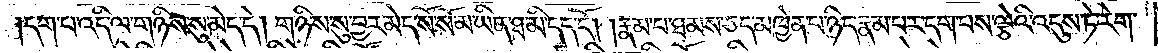དག་པ་འདི་ལ་གཉིས་སུ་མེད་དེ། གཉིས་སུ་བྱར་མེད་སོ་སོ་མ་ཡིན་ཐ་མི་དད་དོ། །རྣམ་པ་ཐམས་ཅད་མཁྱེན་པ་ཉིད་རྣམ་པར་དག་པས་ལྕེའི་འདུས་ཏེ་རེག་
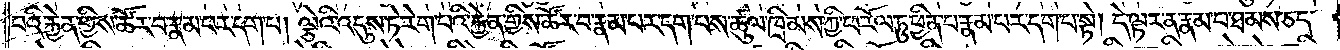པའི་རྐྱེན་གྱིས་ཚོར་བ་རྣམ་པར་དག་པ། ལྕེའི་འདུས་ཏེ་རེག་པའི་རྐྱེན་གྱིས་ཚོར་བ་རྣམ་པར་དག་པས་ཚུལ་ཁྲིམས་ཀྱི་ཕ་རོལ་ཏུ་ཕྱིན་པ་རྣམ་པར་དག་པ་སྟེ། དེ་ལྟར་ན་རྣམ་པ་ཐམས་ཅད་
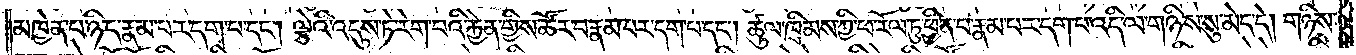མཁྱེན་པ་ཉིད་རྣམ་པར་དག་པ་དང༌། ལྕེའི་འདུས་ཏེ་རེག་པའི་རྐྱེན་གྱིས་ཚོར་བ་རྣམ་པར་དག་པ་དང༌། ཚུལ་ཁྲིམས་ཀྱི་ཕ་རོལ་ཏུ་ཕྱིན་པ་རྣམ་པར་དག་པ་འདི་ལ་གཉིས་སུ་མེད་དེ། གཉིས་
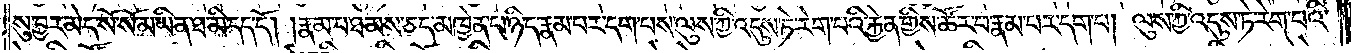སུ་བྱར་མེད་སོ་སོ་མ་ཡིན་ཐ་མི་དད་དོ། །རྣམ་པ་ཐམས་ཅད་མཁྱེན་པ་ཉིད་རྣམ་པར་དག་པས་ལུས་ཀྱི་འདུས་ཏེ་རེག་པའི་རྐྱེན་གྱིས་ཚོར་བ་རྣམ་པར་དག་པ། ལུས་ཀྱི་འདུས་ཏེ་རེག་པའི་
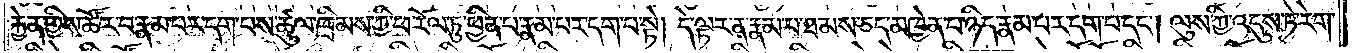རྐྱེན་གྱིས་ཚོར་བ་རྣམ་པར་དག་པས་ཚུལ་ཁྲིམས་ཀྱི་ཕ་རོལ་ཏུ་ཕྱིན་པ་རྣམ་པར་དག་པ་སྟེ། དེ་ལྟར་ན་རྣམ་པ་ཐམས་ཅད་མཁྱེན་པ་ཉིད་རྣམ་པར་དག་པ་དང༌། ལུས་ཀྱི་འདུས་ཏེ་རེག་
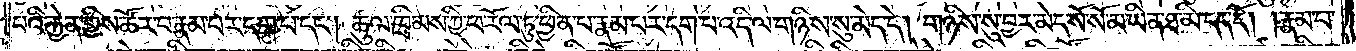པའི་རྐྱེན་གྱིས་ཚོར་བ་རྣམ་པར་དག་པ་དང༌། ཚུལ་ཁྲིམས་ཀྱི་ཕ་རོལ་ཏུ་ཕྱིན་པ་རྣམ་པར་དག་པ་འདི་ལ་གཉིས་སུ་མེད་དེ། གཉིས་སུ་བྱར་མེད་སོ་སོ་མ་ཡིན་ཐ་མི་དད་དོ། །རྣམ་པ་
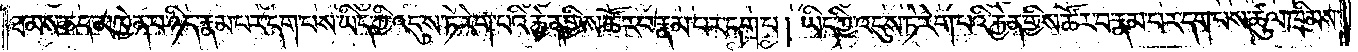ཐམས་ཅད་མཁྱེན་པ་ཉིད་རྣམ་པར་དག་པས་ཡིད་ཀྱི་འདུས་ཏེ་རེག་པའི་རྐྱེན་གྱིས་ཚོར་བ་རྣམ་པར་དག་པ། ཡིད་ཀྱི་འདུས་ཏེ་རེག་པའི་རྐྱེན་གྱིས་ཚོར་བ་རྣམ་པར་དག་པས་ཚུལ་ཁྲིམས་
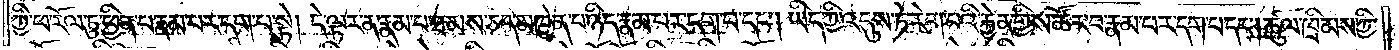ཀྱི་ཕ་རོལ་ཏུ་ཕྱིན་པ་རྣམ་པར་དག་པ་སྟེ། དེ་ལྟར་ན་རྣམ་པ་ཐམས་ཅད་མཁྱེན་པ་ཉིད་རྣམ་པར་དག་པ་དང༌། ཡིད་ཀྱི་འདུས་ཏེ་རེག་པའི་རྐྱེན་གྱིས་ཚོར་བ་རྣམ་པར་དག་པ་དང༌། ཚུལ་ཁྲིམས་ཀྱི་
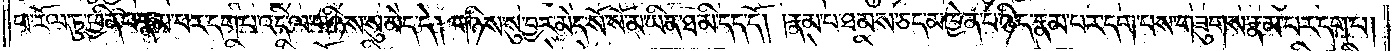ཕ་རོལ་ཏུ་ཕྱིན་པ་རྣམ་པར་དག་པ་འདི་ལ་གཉིས་སུ་མེད་དེ། གཉིས་སུ་བྱར་མེད་སོ་སོ་མ་ཡིན་ཐ་མི་དད་དོ། །རྣམ་པ་ཐམས་ཅད་མཁྱེན་པ་ཉིད་རྣམ་པར་དག་པས་གཟུགས་རྣམ་པར་དག་པ།
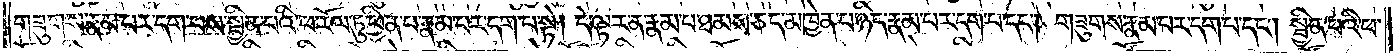གཟུགས་རྣམ་པར་དག་པས་སྦྱིན་པའི་ཕ་རོལ་ཏུ་ཕྱིན་པ་རྣམ་པར་དག་པ་སྟེ། དེ་ལྟར་ན་རྣམ་པ་ཐམས་ཅད་མཁྱེན་པ་ཉིད་རྣམ་པར་དག་པ་དང༌། གཟུགས་རྣམ་པར་དག་པ་དང༌། སྦྱིན་པའི་ཕ་
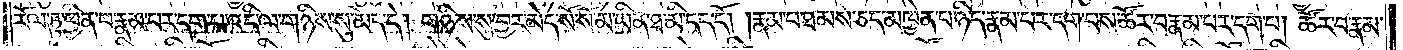རོལ་ཏུ་ཕྱིན་པ་རྣམ་པར་དག་པ་འདི་ལ་གཉིས་སུ་མེད་དེ། གཉིས་སུ་བྱར་མེད་སོ་སོ་མ་ཡིན་ཐ་མི་དད་དོ། །རྣམ་པ་ཐམས་ཅད་མཁྱེན་པ་ཉིད་རྣམ་པར་དག་པས་ཚོར་བ་རྣམ་པར་དག་པ། ཚོར་བ་རྣམ་
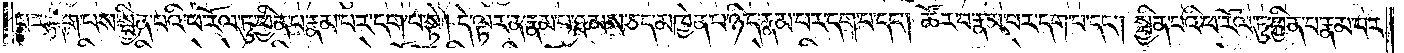པར་དག་པས་སྦྱིན་པའི་ཕ་རོལ་ཏུ་ཕྱིན་པ་རྣམ་པར་དག་པར་པ་སྟེ། དེ་ལྟར་ན་རྣམ་པ་ཐམས་ཅད་མཁྱེན་པ་ཉིད་རྣམ་པར་དག་པ་དང༌། ཚོར་བ་རྣམ་པར་དག་པ་དང༌། སྦྱིན་པའི་ཕ་རོལ་ཏུ་ཕྱིན་པ་རྣམ་པར་
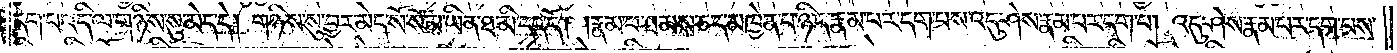དག་པ་འདི་ལ་གཉིས་སུ་མེད་དེ། གཉིས་སུ་བྱར་མེད་སོ་སོ་མ་ཡིན་ཐ་མི་དད་དོ། །རྣམ་པ་ཐམས་ཅད་མཁྱེན་པ་ཉིད་རྣམ་པར་དག་པས་འདུ་ཤེས་རྣམ་པར་དག་པ། འདུ་ཤེས་རྣམ་པར་དག་པས་
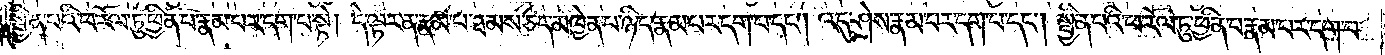སྦྱིན་པའི་ཕ་རོལ་ཏུ་ཕྱིན་པ་རྣམ་པར་དག་པ་སྟེ། དེ་ལྟར་ན་རྣམ་པ་ཐམས་ཅད་མཁྱེན་པ་ཉིད་རྣམ་པར་དག་པ་དང༌། འདུ་ཤེས་རྣམ་པར་དག་པ་དང༌། སྦྱིན་པའི་ཕ་རོལ་ཏུ་ཕྱིན་པ་རྣམ་པར་དག་པ་
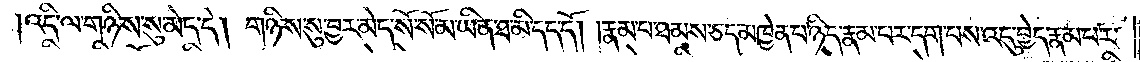དི་ལ་གཉིས་སུ་མེད་དེ། གཉིས་སུ་བྱར་མེད་སོ་སོ་མ་ཡིན་ཐ་མི་དད་དོ། །རྣམ་པ་ཐམས་ཅད་མཁྱེན་པ་ཉིད་རྣམ་པར་དག་པས་འདུ་བྱེད་རྣམ་པར་
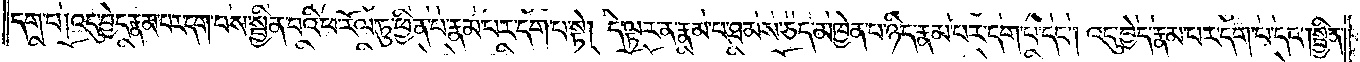དག་པ། འདུ་བྱེད་རྣམ་པར་དག་པས་སྦྱིན་པའི་ཕ་རོལ་ཏུ་ཕྱིན་པ་རྣམ་པར་དག་པ་སྟེ། དེ་ལྟར་ན་རྣམ་པ་ཐམས་ཅད་མཁྱེན་པ་ཉིད་རྣམ་པར་དག་པ་དང༌། འདུ་བྱེད་རྣམ་པར་དག་པ་དང༌། སྦྱིན་
